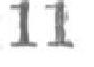11
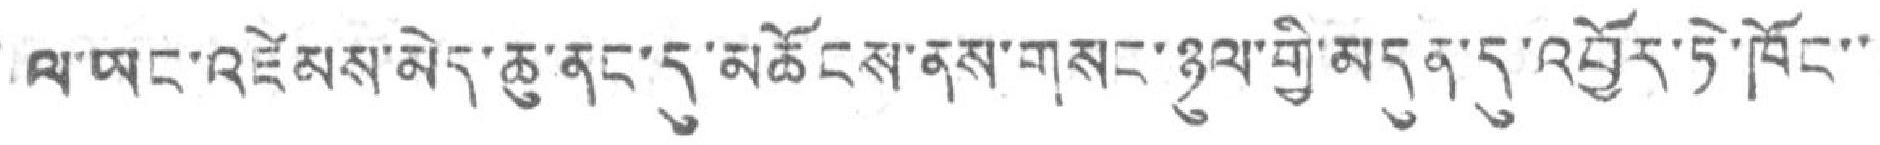ལ་ཡང་འཛེམས་མེད་ཆུ་ནང་དུ་མཚོངས་ནས་གསང་ཉལ་གྱི་མདུན་དུ་འབྱོར་ཏེ་ཁོང་་
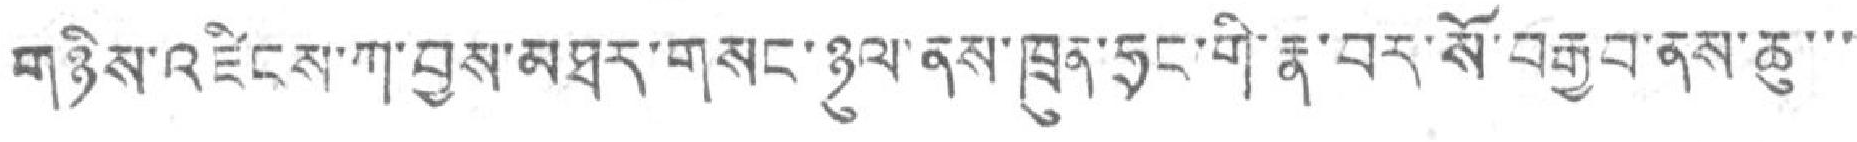གཉིས་འཛིངས་ཀ་བྱས་མཐར་གསང་ཉུལ་ནས་ཁྲུན་ཧྲང་གི་རྣ་བར་སོ་བརྒྱབ་ནས་ཆུ་་་
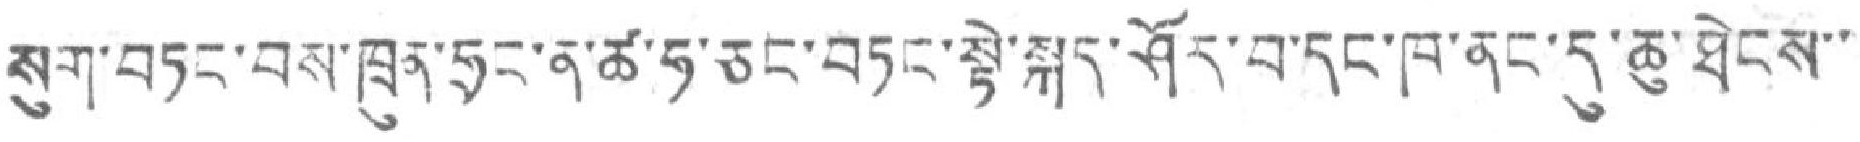སུག་བཏང་བས་ཁྲུན་ཧྲང་ན་ཚ་ཧ་ཅང་བཏང་སྟེ་སྐད་ཤོར་བ་དང་ཁ་ནང་དུ་ཆུ་ཐེངས་་
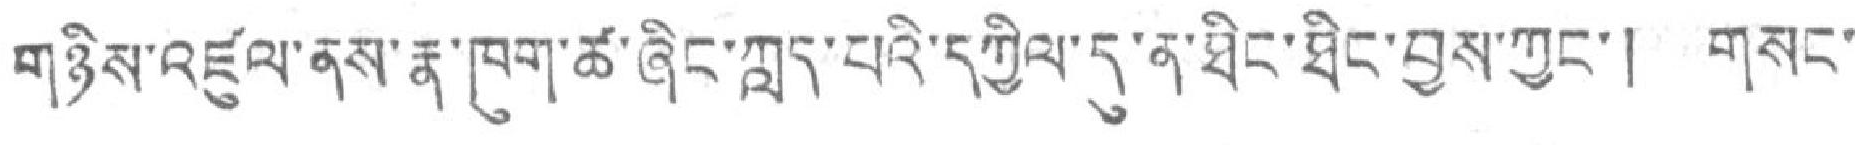གཉིས་འཛུལ་ནས་རྣ་ཁུག་ཚ་ཞིང་ཀླད་པའི་དཀྱིལ་དུ་ན་ཐིང་ཐིང་བྱས་ཀྱང་། གསང་
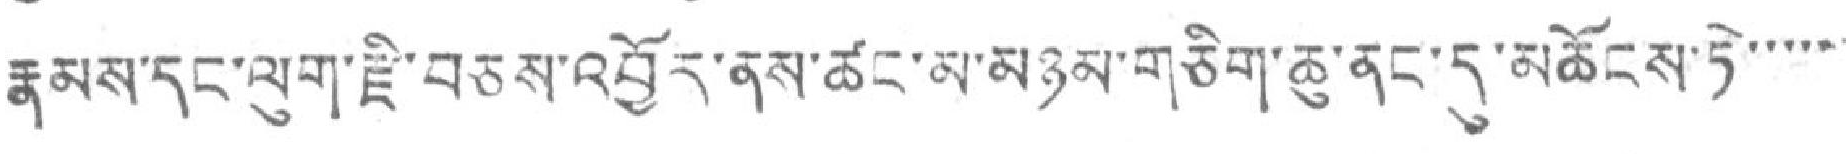རྣམས་དང་ལུག་ཇི་བཅས་འབྱོར་ནས་ཚང་མ་མཉམ་གཅིག་ཆུ་ནང་དུ་མཚོངས་ཏེ་་་་་་
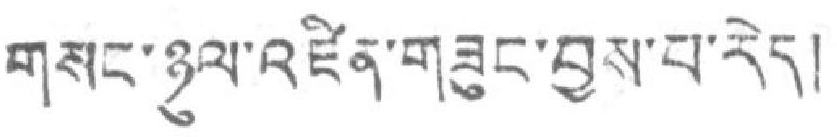གསང་ཉུལ་འཛིན་གཟུང་བྱས་པ་རེད།
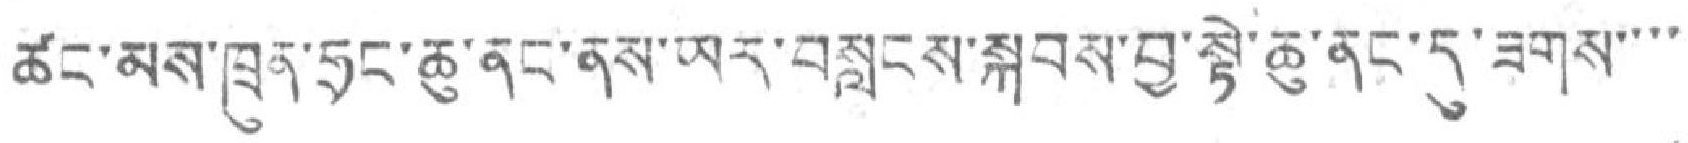ཚང་མས་ཁྲུན་ཧྲང་ཆུ་ནང་ནས་ཡར་བསླངས་སྐབས་བྱ་སྟེ་ཆུ་ནང་དུ་ཟགས་་་་
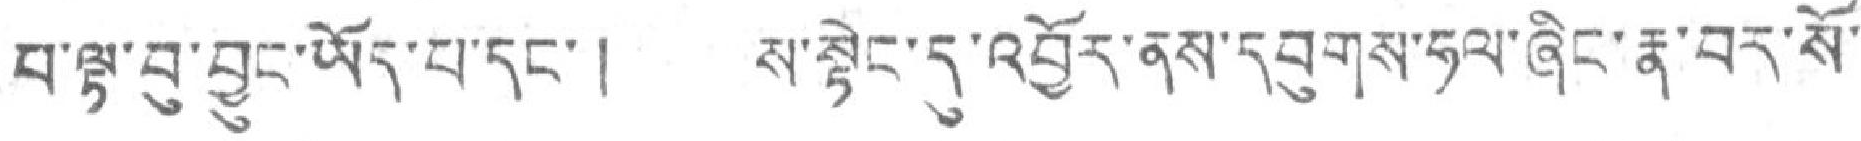བ་ལྟ་བུ་བྱུང་ཡོད་པ་དང་། ས་སྟེང་དུ་འབྱོར་ནས་དབུགས་ཧལ་ཞིང་རྣ་བར་སོ་
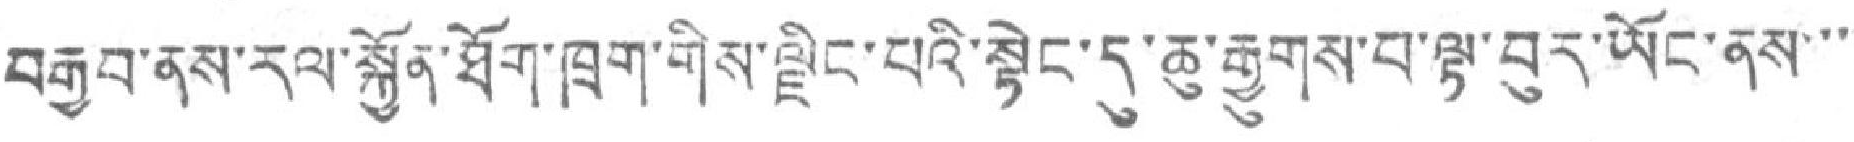བརྒྱབ་ནས་རལ་སྐྱོན་ཐོག་ཁྲག་གིས་ལྗིང་པལི་སྟེང་དུ་ཆུ་རྒྱུགས་བ་ལྟ་བུར་ཡོང་ནས་་་
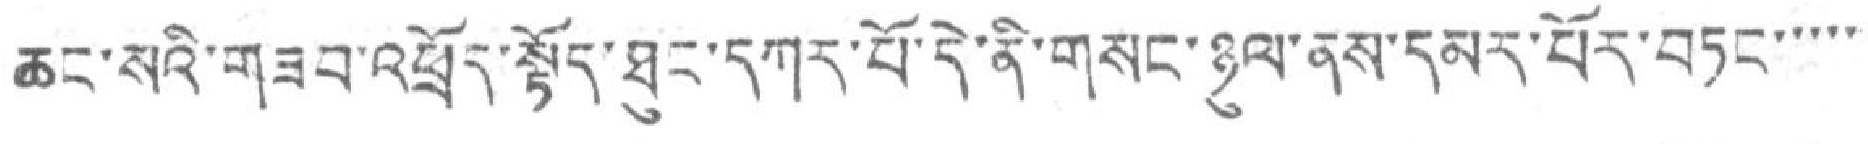ཆང་སའི་གཟབ་འཕྲོད་སྟོད་ཐུང་དཀར་པོ་དེ་ནི་གསང་ཉུལ་ནས་དམར་པོར་བཏང་་་་་
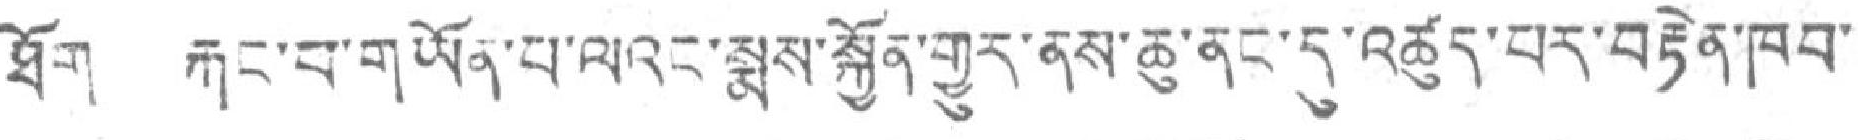ཐོག རྐང་བ་གཡོན་པ་ལའང་སྨས་སྐྱོན་གྱུར་ནས་ཆུ་ནང་དུ་འཚུད་པར་བརྟེན་ཁབ་
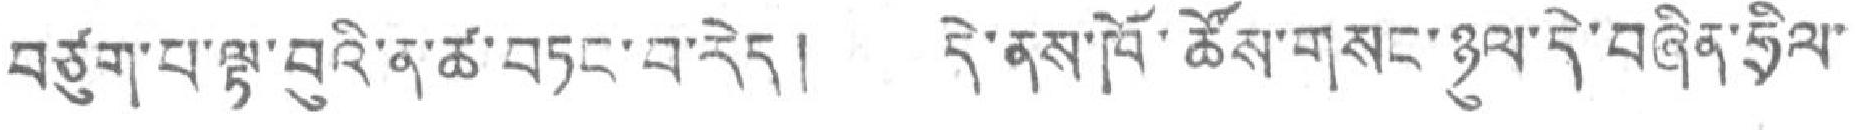བཙུག་པ་ལྟ་བུའི་ན་ཚ་བཏང་བ་རེད། དེ་ནས་ཁོ་ཚོས་གསང་ཉུལ་དེ་བཞིན་ཧྲིལ་
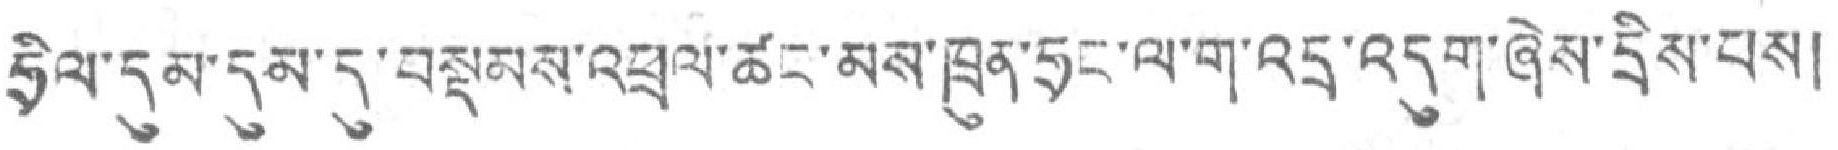ཧྲིལ་དུམ་དུམ་དུ་བསྡམས་འཕྲལ་ཚང་མས་ཁྲུན་ཧྲང་ལ་ག་འདྲ་འདུག་ཞེས་དྲིས་པས།
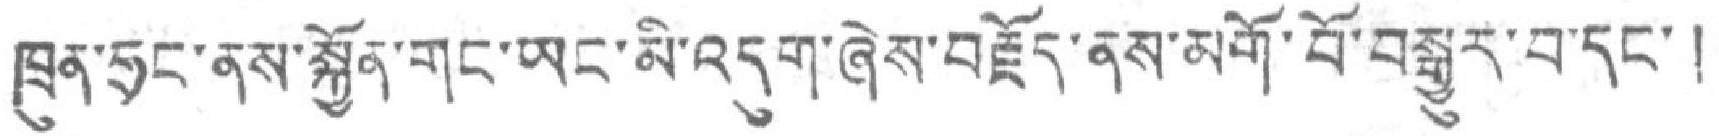ཁྲུན་ཧྲང་ནས་སྐྱོན་གང་ཡང་མི་འདུག་ཞེས་བརྗོད་ནས་མགོ་བོ་བསྒྱུར་བ་དང་།
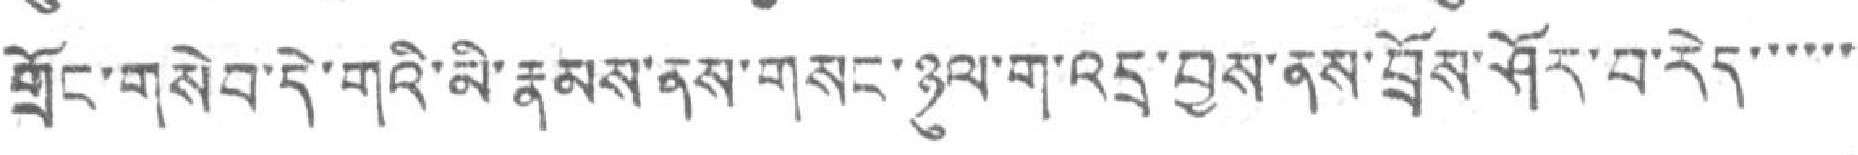གྲོང་གསེབ་དེ་གའི་མི་རྣམས་ནས་གསང་ཉུལ་ག་འདྲ་བྱས་ནས་བྲོས་ཤོར་བ་རེད་་་་་་
